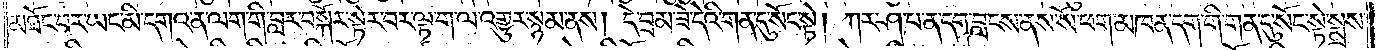མཐོང་བར་ཡང་མི་དགའ་ན་ལག་གི་བླར་བསྐོར་སྟེར་བར་ལྟ་ག་ལ་འགྱུར་སྙམ་ནས། དེ་བྲམ་ཟེ་དེའི་གན་དུ་སོང་སྟེ། ཀར་ཤ་པ་ན་དག་བླངས་ནས་སོ་ཕག་མཁན་དག་གི་གན་དུ་སོང་སྟེ་སྨྲས་
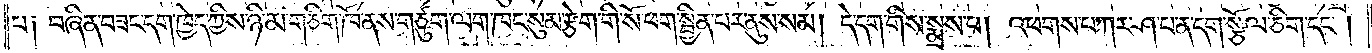པ༑ བཞིན་བཟང་དག་ཁྱེད་ཀྱིས་ཉི་མ་གཅིག་ཁོ་ནས་གཙུག་ལག་ཁང་སུམ་རྩེག་གི་སོ་ཕག་སྦྱིན་པར་ནུས་སམ། དེ་དག་གིས་སྨྲས་པ། འཕགས་པ་ཀར་ཤ་པ་ན་དག་སྩོལ་ཅིག་དང༌།
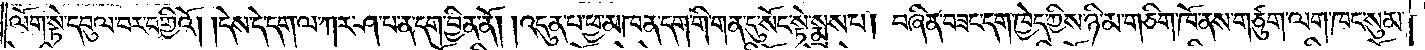ལོག་སྟེ་དབུལ་བར་བགྱིའོ། །དེས་དེ་དག་ལ་ཀར་ཤ་པ་ན་དག་བྱིན་ནོ། །འདུན་པ་ཕྱ་མཁན་དག་གི་གན་དུ་སོང་སྟེ་སྨྲས་པ། བཞིན་བཟང་དག་ཁྱེད་ཀྱིས་ཉི་མ་གཅིག་ཁོ་ནས་གཙུག་ལག་ཁང་སུམ་
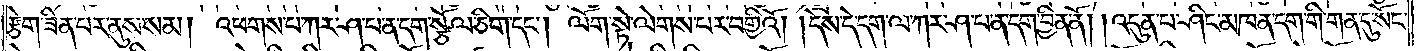རྩེག་ཟིན་པར་ནུས་སམ། འཕགས་པ་ཀར་ཤ་པ་ན་དག་སྩོལ་ཅིག་དང༌། ལོག་སྟེ་ལེགས་པར་བགྱིའོ། །དེས་དེ་དག་ལ་ཀར་ཤ་པ་ན་དག་བྱིན་ནོ། །འདུན་པ་ཤིང་མཁན་དག་གི་གན་དུ་སོང་
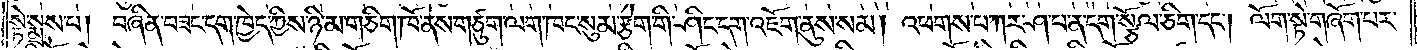སྟེ་སྨྲས་པ། བཞིན་བཟང་དག་ཁྱེད་ཀྱིས་ཉི་མ་གཅིག་ཁོ་ནས་གཙུག་ལག་ཁང་སུམ་རྩེག་གི་ཤིང་དག་འཇོག་ནུས་སམ། འཕགས་པ་ཀར་ཤ་པ་ན་དག་སྩོལ་ཅིག་དང༌། ལོག་སྟེ་གཞོག་པར་
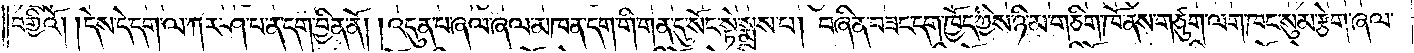བགྱིའོ། །དེས་དེ་དག་ལ་ཀར་ཤ་པ་ན་དག་བྱིན་ནོ། །འདུན་པ་ཞལ་ཞལ་མཁན་དག་གི་གན་དུ་སོང་སྟེ་སྨྲས་པ། བཞིན་བཟང་དག་ཁྱོད་ཀྱིས་ཉི་མ་གཅིག་ཁོ་ནས་གཙུག་ལག་ཁང་སུམ་རྩེག་ཞལ་
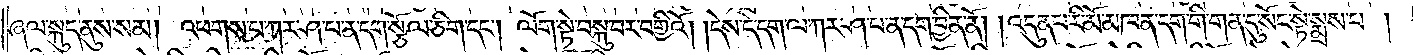ཞལ་སྐུད་ནུས་སམ། འཕགས་པ་ཀར་ཤ་པ་ན་དག་སྩོལ་ཅིག་དང༌། ལོག་སྟེ་བསྐུ་བར་བགྱིའོ། །དེས་དེ་དག་ལ་ཀར་ཤ་པ་ན་དག་བྱིན་ནོ། །འདུན་པ་རི་མོ་མཁན་དག་གི་གན་དུ་སོང་སྟེ་སྨྲས་པ།
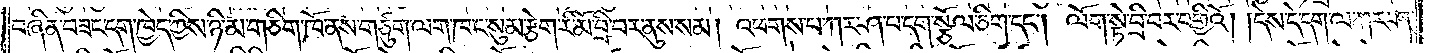བཞིན་བཟང་དག་ཁྱེད་ཀྱིས་ཉི་མ་གཅིག་ཁོ་ནས་གཙུག་ལག་ཁང་སུམ་རྩེག་རི་མོ་བྲི་བར་ནུས་སམ། འཕགས་པ་ཀར་ཤ་པ་དག་སྩོལ་ཅིག་དང༌། ལོག་སྟེ་བྲི་བར་བགྱིའོ། །དེས་དེ་དག་ལ་ཀར་ཤ་
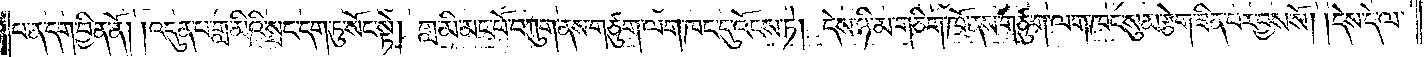པ་ན་དག་བྱིན་ནོ། །འདུན་པ་གླ་མིའི་སྲང་དག་ཏུ་སོང་སྟེ། གླ་མི་མང་པོ་བཀུག་ནས་གཙུག་ལག་ཁང་དུ་འོངས་ཏེ། དེས་ཉི་མ་གཅིག་ཁོ་ནས་གཙུག་ལག་ཁང་སུམ་རྩེག་ཟིན་པར་བྱས་སོ། །དེས་དེ་ལ་
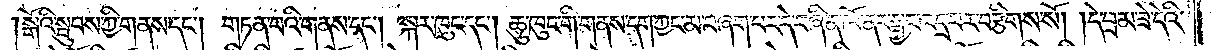སྒོའི་སྦུབས་ཀྱི་གནས་དང༌། གཏན་པའི་གནས་དང༌། སྐར་ཁུང་དང༌། ཆུ་ཁུང་གི་གནས་དག་ཀྱང་མ་བཞག་པར་དེ་བཞིན་ཁོ་ནར་སྦྱང་འདྲ་བར་བརྩིགས་སོ། །དེ་བྲམ་ཟེ་དེའི་
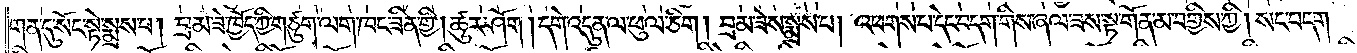གན་དུ་སོང་སྟེ་སྨྲས་པ། བྲམ་ཟེ་ཁྱོད་ཀྱི་གཙུག་ལག་ཁང་ཟིན་གྱི། ཚུར་ཤོག །དགེ་འདུན་ལ་ཕུལ་ཅིག། བྲམ་ཟེས་སྨྲས་པ། འཕགས་པ་དེང་བདག་གིས་ཞལ་ཟས་སྟ་གོན་མ་བགྱིས་ཀྱི། སང་བདག་
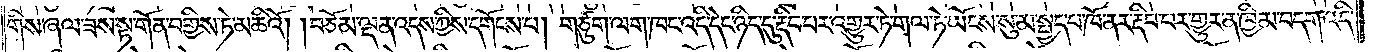གིས་ཞལ་ཟས་སྟ་གོན་བགྱིས་ཏེ་མཆིའོ། །བཅོམ་ལྡན་འདས་ཀྱིས་དགོངས་པ། གཙུག་ལག་ཁང་འདི་དེང་ཉིད་དུ་རྡིང་པར་འགྱུར་ཏེ་གལ་ཏེ་ཡོངས་སུ་མ་སྤྱད་པ་ཁོ་ནར་རྡིབ་པར་གྱུར་ན་ཁྱིམ་བདག་འདི་
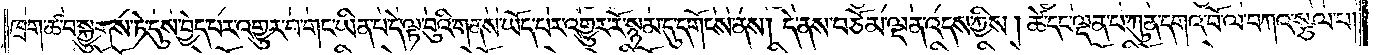ཁྲག་ཚ་བ་སྐྱུགས་ཏེ་དུས་བྱེད་པར་འགྱུར་བ་གང་ཡིན་པ་དེ་ལྟ་བུའི་གནས་ཡོད་པར་འགྱུར་རོ་སྙམ་དུ་དགོངས་ནས། དེ་ནས་བཅོམ་ལྡན་འདས་ཀྱིས། ཚེ་དང་ལྡན་པ་ཀུན་དགའ་བོ་ལ་བཀའ་སྩལ་པ།
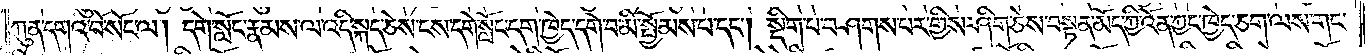ཀུན་དགའ་བོ་སོང་ལ། དགེ་སློང་རྣམས་ལ་འདི་སྐད་ཅེས་ངས་དགེ་སློང་དག་ཁྱེད་དགེ་བ་མི་སྤྱོམས་པ་དང༌། སྡིག་པ་བཤགས་པར་གྱིས་ཤིག་ཅེས་བསྟན་མོད་ཀྱི་འོན་ཀྱང་ཁྱེད་ཅག་ལས་གང་
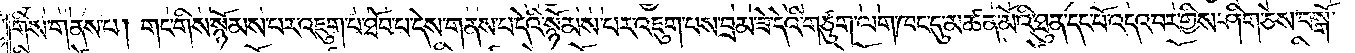གིས་གནས་པ། གང་གིས་སྙོམས་པར་འཇུག་པ་ཐོབ་པ་དེས་གནས་པ་དེའི་སྙོམས་པར་འཇུག་པས་བྲམ་ཟེ་དེའི་གཙུག་ལག་ཁང་དུ་མཚན་མོའི་ཐུན་དང་པོ་འདའ་བར་གྱིས་ཤིག་ཅེས་བསྒོ་
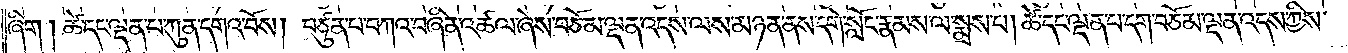ཞིག །ཚེ་དང་ལྡན་པ་ཀུན་དགའ་བོས། བཙུན་པ་བཀའ་བཞིན་འཚལ་ཞེས་བཅོམ་ལྡན་འདས་ལས་མཉན་ནས་དགེ་སློང་རྣམས་ལ་སྨྲས་པ། ཚེ་དང་ལྡན་པ་དག་བཅོམ་ལྡན་འདས་ཀྱིས་
